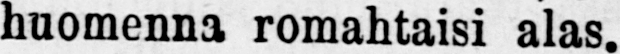huomenna romahtaisi alas.
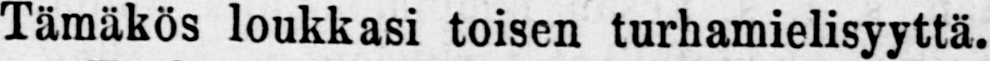Tämäkös loukkasi toisen turhamielisyyttä.
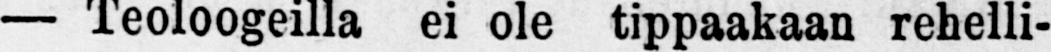— Teoloogeilla ei ole tippaakaan rehelli-
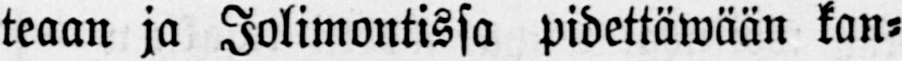teaan ja Jolimontissa pidettäwään kan-
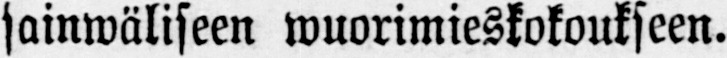sainwäliseen wuorimieskokoukseen.
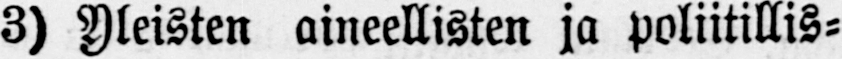3) Yleisten aineellisten ja poliitillis-
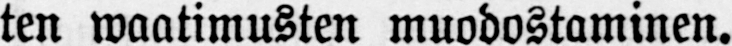ten waatimusten muodostaminen.
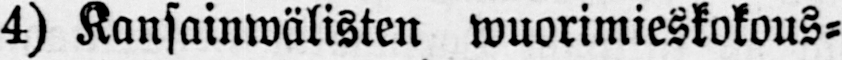4) Kansainwälisten wuorimieskokous-
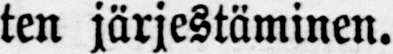ten järjestäminen.
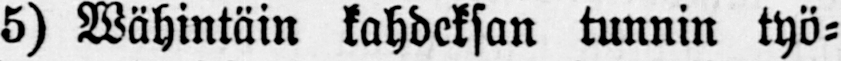5) Wähintäin kahdeksan tunnin työ-
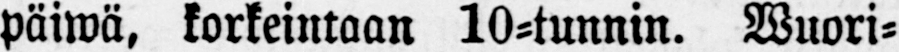päiwä, korkeintaan 10-tunnin. Wuori-
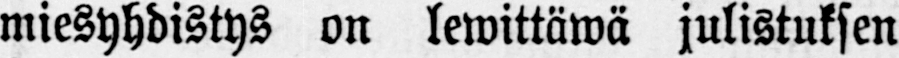miesyhdistys on lewittäwä julistuksen
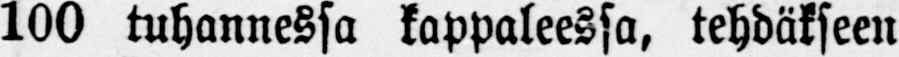100 tuhannessa kappaleessa, tehdäkseen
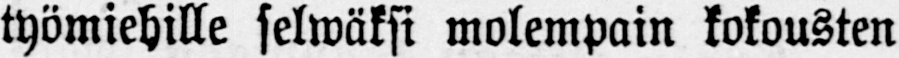työmiehille selwäksi molempain kokousten
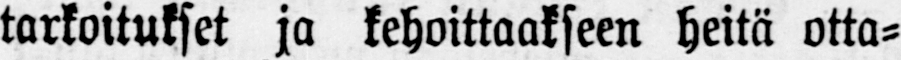tarkoitukset ja kehoittaakseen heitä otta-
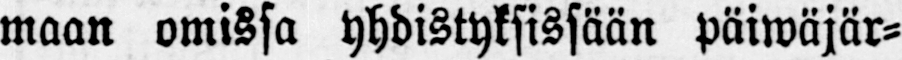maan omissa yhdistyksissään päiwäjär-
